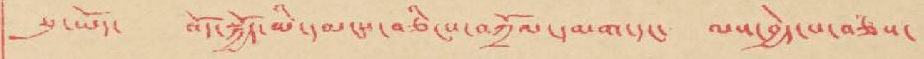སུ་ཡོད་ བོད་སྐྱོད་མི་དམངས་བཅིངས་བཀྲོལ་དམག་དང་ ལས་བྱེད་པ་བཅས་
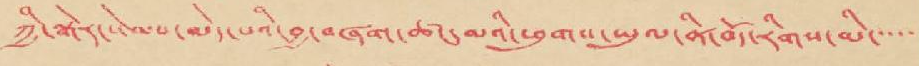ཀྱི་སྒེར་སེམས་མེད་པའི་བྱ་བཞག་ཚང་མའི་ཕུགས་ཡུལ་ནི་བོད་རིགས་མི་་་་་
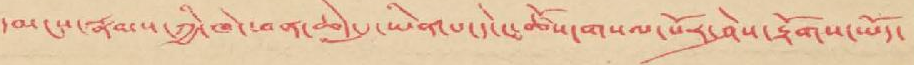དམངས་རྣམས་ཀྱི་ཁེ་ཕན་ཆེད་དུ་ཡིན་པ་དེ་ང་ཚོས་གསལ་པོར་ཤེས་རྟོགས་ཡོད་
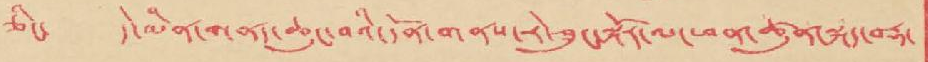ཅིང་ དེ་མིན་གནད་ཆུང་བའི་དོན་གནས་རེ་ཟུང་སྐོར་ལ་ཕན་ཚུན་སྐད་བརྡ་
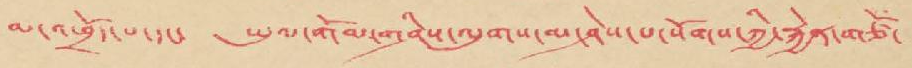མ་འཕྲོད་པ་དང་ ཡུལ་གོམ་གཤིས་ལུགས་མ་ཤེས་པ་སོགས་ཀྱི་རྐྱེན་གཙོ་
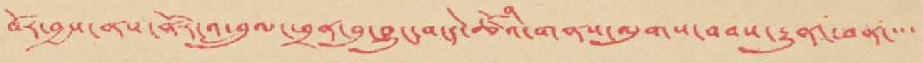བོར་བྱས་ནས་ནོར་འཕྲུལ་ཕྲནན་བུ་བྱུང་བ་དེ་ཚོའི་གནས་ལུགས་བསམ་རྒྱུན་ཕན་་་་
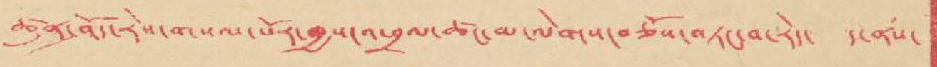ཚུན་ཤོད་རེས་གསལ་པོར་བྱས་འཕྲལ་ཚང་མ་ལེགས་བཅོས་བཏང་བ་རེད་ ད་ནས་
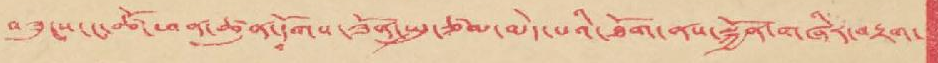བཟུངས་ང་ཚོ་ཕན་ཚུན་དྭོགས་ཟོན་སྤུ་ཙམ་མེད་པའི་ཐོག་ནས་སྐྱོན་གཞིར་བརྟག་
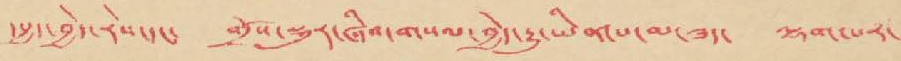དཔྱད་བྱེད་རེས་དང་ གྲོས་སྡུར་ཞིབ་གསལ་བྱེད་རྒྱུ་ཡིན་པ་མ་ཟད་ ལྷག་པར་
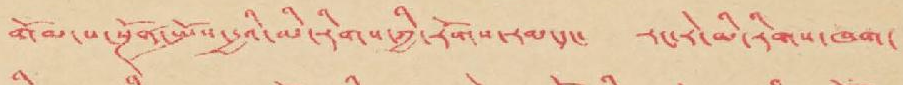གོམ་པ་སྔོན་སྤོས་རྒྱའི་མི་རིགས་ཀྱི་རོགས་རམ་དང་ རང་རེ་མི་རིགས་ཁག་
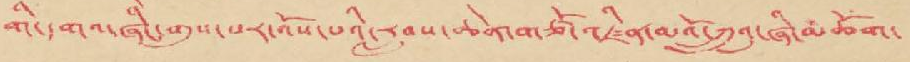གི་དགའ་ཞིང་གུས་པར་འོས་པའི་རླབས་ཆེན་གཙོ་འཛིན་མའོ་ཀྲུའུ་ཞི་མཆོག་
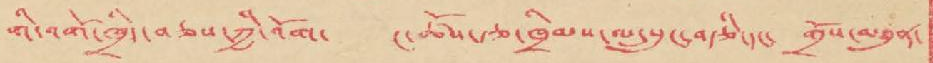གི་འགོ་ཁྲིད་བཅས་ཀྱི་འོག་ ང་ཚོས་རྩ་ཁྲིམས་ལ་སྲུང་བརྩི་དང་ གྲོས་མཐུན་
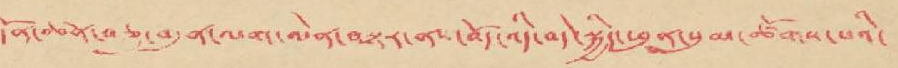དོན་ཆེན་བཅུ་བདུན་ལག་ལེན་བསྟར་ནས་བོད་འདི་བདེ་སྐྱིད་ཕུན་སུམ་ཚོགས་པའི་
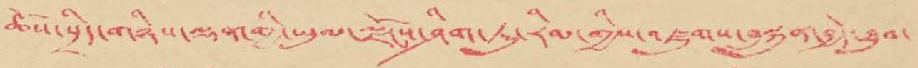ཆོས་སྲིད་གཉིས་ལྡན་གྱི་ཡུལ་ལྗོངས་ཤིག་ཏུ་རིམ་གྱིས་འཛུགས་བསྐྲུན་བྱེད་ཐུབ་
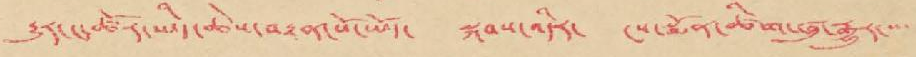རྒྱུར་ང་ཚོར་ཡིད་ཆེས་བརྟན་པོ་ཡོད་ སྐབས་འདིར་ ངས་སྨོན་ཚིགས་ཕུལ་རྒྱུར་་་་
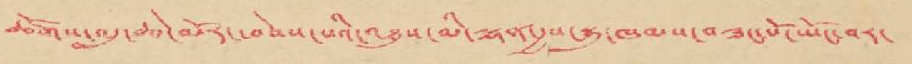ཚོགས་འདུ་ཆེ་མོར་ཕེབས་པའི་འཐུས་མི་ལྷན་རྒྱས་སྐུ་ཁམས་བཟང་པོ་ཡོང་བར་
